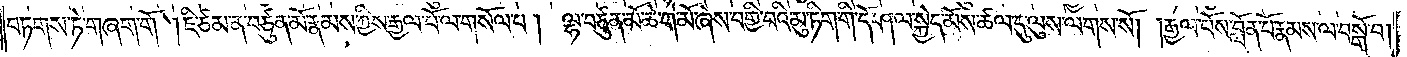བཏགས་ཏེ་གཞག་གོ །ཇི་ཙམ་ན་བཙུན་མོ་རྣམས་ཀྱིས་རྒྱལ་པོ་ལ་གསོལ་པ། ལྷ་བཙུན་མོ་ཆེ་གེ་མོ་ཞེས་བགྱི་བའི་མུ་ཏིག་གི་དོ་ཤལ་སྐྱེད་མོས་ཚལ་དུ་ལུས་ལགས་སོ། །རྒྱལ་པོས་བློན་པོ་རྣམས་ལ་བསྒོ་བ།
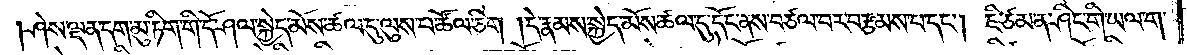ཤེས་ལྡན་དག་མུ་ཏིག་གི་དོ་ཤལ་སྐྱེད་མོས་ཚལ་དུ་ལུས་པ་ཚོལ་ཅིག །དེ་རྣམས་སྐྱེད་མོས་ཚལ་དུ་དོང་ནས་བཙལ་བར་བརྩམས་པ་དང༌། ཇི་ཙམ་ན་ཤིང་གི་ཡལ་ག་
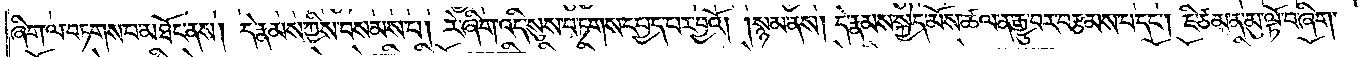ཞིག་ལ་བཏགས་པ་མཐོང་ནས། དེ་རྣམས་ཀྱིས་བསམས་པ། རེ་ཞིག་འདི་སུས་བཏགས་དཔྱད་པར་བྱའོ། །སྙམ་ནས། དེ་རྣམས་སྐྱེད་མོས་ཚལ་ན་རྒྱུ་བར་བརྩམས་པ་དང༌། ཇི་ཙམ་ན་མུ་ལྟོ་བ་ཞིག་
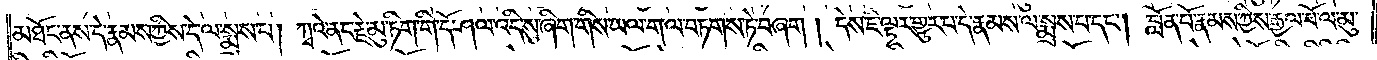མཐོང་ནས་དེ་རྣམས་ཀྱིས་དེ་ལ་སྨྲས་པ། ཀྭའི་ནང་རྗེ་མུ་ཏིག་གི་དོ་ཤལ་འདི་སུ་ཞིག་གིས་ཡལ་ག་ལ་བཏགས་ཏེ་བཞག། དེས་ཇི་ལྟར་གྱུར་པ་དེ་རྣམས་ལ་སྨྲས་པ་དང༌། བློན་པོ་རྣམས་ཀྱིས་རྒྱལ་པོ་ལ་མུ་
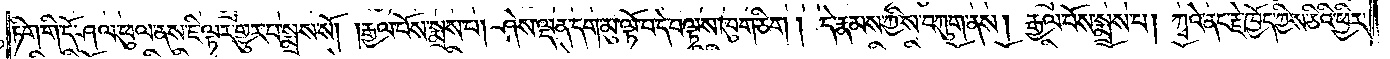ཏིག་གི་དོ་ཤལ་ཕུལ་ནས་ཇི་ལྟར་གྱུར་པ་སྨྲས་སོ། །རྒྱལ་པོས་སྨྲས་པ། ཤེས་ལྡན་དག་མུ་ལྟོ་བ་དེ་བལྟས་ཁུག་ཅིག། དེ་རྣམས་ཀྱིས་བཀུག་ནས། རྒྱལ་པོས་སྨྲས་པ། ཀྭའི་ནང་རྗེ་ཁྱོད་ཀྱིས་ཅིའི་ཕྱིར་
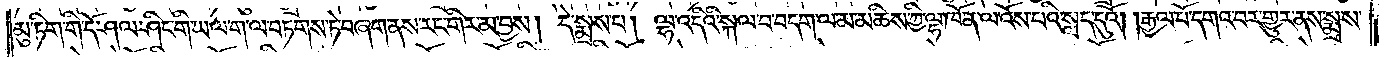མུ་ཏིག་གི་དོ་ཤལ་ཤིང་གི་ཡལ་ག་ལ་བཏགས་ཏེ་བཞག་ནས་རང་གིར་མ་བྱས། དེ་སྨྲས་པ། ལྷ་འདིའི་སྐལ་བ་བདག་ལ་མ་མཆིས་ཀྱི་ལྷ་ཁོ་ན་ལ་འོས་པའི་སླད་དུའོ། །རྒྱལ་པོ་དགའ་བར་གྱུར་ནས་སྨྲས་
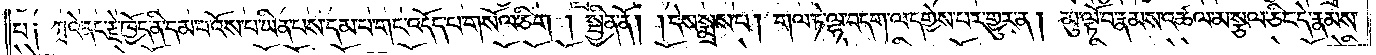པ། ཀྭའེ་ནང་རྗེ་ཁྱོད་ནི་དམ་པ་འོས་པ་ཡིན་པས་དམ་པ་གང་འདོད་པ་གསོལ་ཅིག །སྦྱིན་ནོ། །དེས་སྨྲས་པ། གལ་ཏེ་ལྷ་བདག་ལ་དགྱེས་པར་གྱུར་ན། མུ་ལྟོ་བ་རྣམས་འཚལ་མ་སྩལ་ཅིང་དེ་རྣམས་
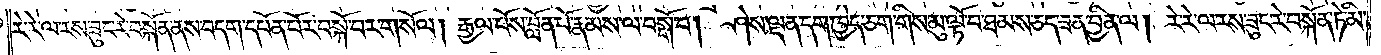རེ་རེ་ལ་རས་ཟུང་རེ་བསྐོན་ནས་བདག་དཔོན་པོར་བསྐོ་བར་གསོལ། རྒྱལ་པོས་བློན་པོ་རྣམས་ལ་བསྒོ་བ། ཤེས་ལྡན་དག་ཁྱེད་ཅག་གིས་མུ་ལྟོ་བ་ཐམས་ཅད་ཟན་བྱིན་ལ། རེ་རེ་ལ་རས་ཟུང་རེ་བསྐོན་ཏེ་མི་
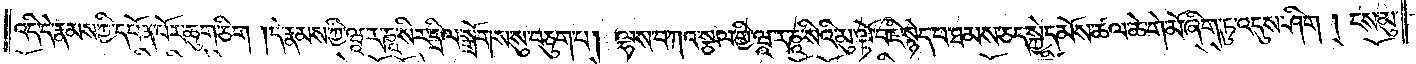འདི་དེ་རྣམས་ཀྱི་དཔོན་པོར་ཆུག་ཅིག །དེ་རྣམས་ཀྱི་ཝཱ་ར་ཎཱ་སིར་དྲིལ་སྒྲོགས་སུ་བཅུག་པ། ལྷས་བཀའ་སྩལ་གྱི་ཝཱ་ར་ཎཱ་སིའི་མུ་ལྟོ་བ་ཇི་སྙེད་པ་ཐམས་ཅད་སྐྱེད་མོས་ཚལ་ཆེ་གེ་མོ་ཞིག་ཏུ་འདུས་ཤིག །ངས་མུ་
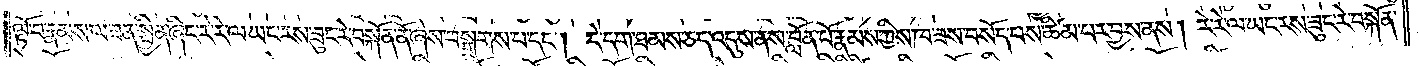ལྟོ་བ་རྣམས་ལ་ཟན་སྦྱིན་ཞིང་རེ་རེ་ལ་ཡང་རས་ཟུང་རེ་བསྐོན་ནོ་ཞེས་བསྒྲགས་པ་དང༌། དེ་དག་ཐམས་ཅད་འདུས་ནས་བློན་པོ་རྣམས་ཀྱིས་ཁ་ཟས་བསོད་པས་ཚིམ་པར་བྱས་ནས། རེ་རེ་ལ་ཡང་རས་ཟུང་རེ་བསྐོན་
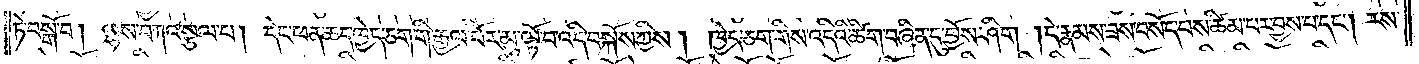ཏེ་བསྒོ་བ། ལྷས་བཀའ་སྩལ་པ། དེང་ཕན་ཆད་ཁྱེད་ཅག་གི་རྒྱལ་པོར་མུ་ལྟོ་བ་འདི་བསྐོས་ཀྱིས། ཁྱེད་ཅག་གིས་འདིའི་ཚིག་བཞིན་དུ་བྱོས་ཤིག །དེ་རྣམས་ཟས་བསོད་པས་ཚིམ་པར་བྱས་པ་དང༌། རས་
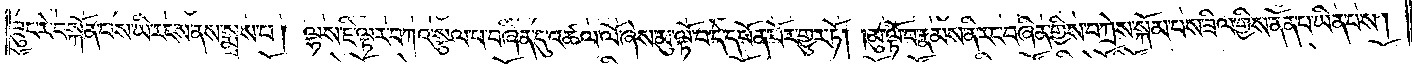ཟུང་རེ་བསྐོན་པས་ཡི་རངས་ནས་སྨྲས་པ། ལྷས་ཇི་ལྟར་བཀའ་སྩལ་པ་བཞིན་དུ་འཚལ་ལོ་ཞེས་མུ་ལྟོ་བ་དེ་དཔོན་པོར་གྱུར་ཏོ། །མུ་ལྟོ་བ་རྣམས་ནི་རང་བཞིན་གྱིས་བཀྲེས་སྐོམ་པས་ཟིལ་གྱིས་ནོན་པ་ཡིན་པས།
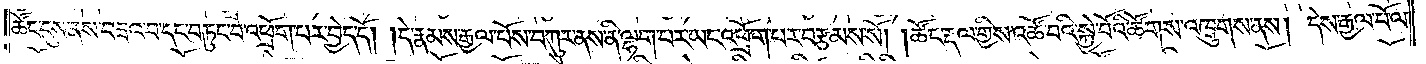ཚོང་དུས་ནས་བཟའ་བ་དང་བཏུང་བ་འཕྲོག་པར་བྱེད་དོ། །དེ་རྣམས་རྒྱལ་པོས་བཀུར་ནས་ནི་ལྷག་པར་ཡང་འཕྲོག་པར་བརྩམས་སོ། །ཚོང་རྡལ་གྱིས་འཚོ་བའི་སྐྱེ་བོའི་ཚོགས་འཁྲུགས་ནས། དེས་རྒྱལ་པོ་ལ་
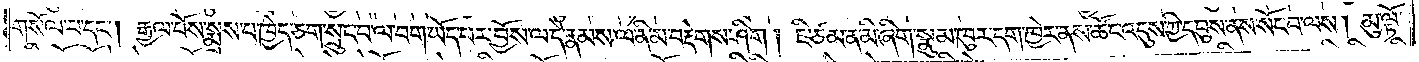གསོལ་པ་དང༌། རྒྱལ་པོས་སྨྲས་པ་ཁྱེད་ཅག་སྲུང་བ་ལ་བག་ཡོད་པར་བྱོས་ལ་དེ་རྣམས་ལ་ནི་མ་བརྡེགས་ཤིག། ཇི་ཙམ་ན་མི་ཞིག་སྣུམ་ཁུར་དག་ཁྱེར་ནས་ཚོང་འདུས་ཀྱི་དབུས་ནས་སོང་བ་ལས། མུ་ལྟོ་
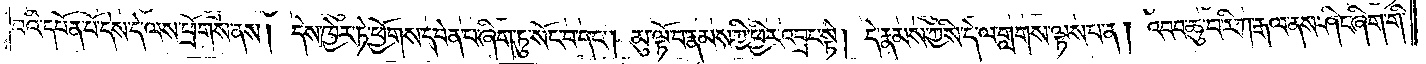པའི་དཔོན་པོ་དེས་དེ་ལས་ཕྲོགས་ནས། དེས་ཁྱེར་ཏེ་ཕྱོགས་དབེན་པ་ཞིག་ཏུ་སོང་བ་དང༌། མུ་ལྟོ་བ་རྣམས་ཀྱི་ཕྱིར་འབྲང་སྟེ། དེ་རྣམས་ཀྱིས་དེ་ལ་གླགས་ལྟས་པ་ན། འབབ་ཆུ་བ་རི་ཀ་རྒལ་ནས་ཤིང་ཞིག་གི་
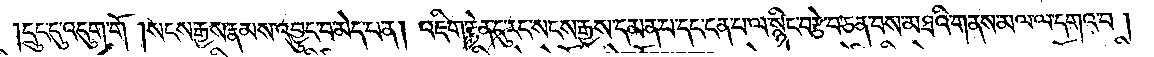།དྲུང་དུ་འདུག་གོ །སངས་རྒྱས་རྣམས་འབྱུང་བ་མེད་པ་ན། འཇིག་རྟེན་དུ་རང་སངས་རྒྱས་དམན་པ་དང་ངན་པ་ལ་སྙིང་བརྩེ་བ་ཅན་པས་མཐའི་གནས་མལ་ལ་དགའ་བ།
